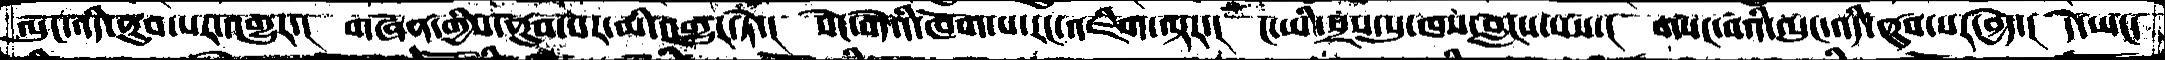ལུང་འདི་ནུབ་པར་འགྱུར་།  གཞན་གྱིས་ནུབ་པོར་མི་འགྱུར་ཏེ་།  སེང་གེའི་ཁོག་པ་རང་འཇིག་ལྟར་།  ང་ཡི་སྲས་སུ་ཁས་བླངས་པས་།  གསང་བའི་ལུང་འདི་ནུབ་པར་བྱེད་།  དེ་ཡང་
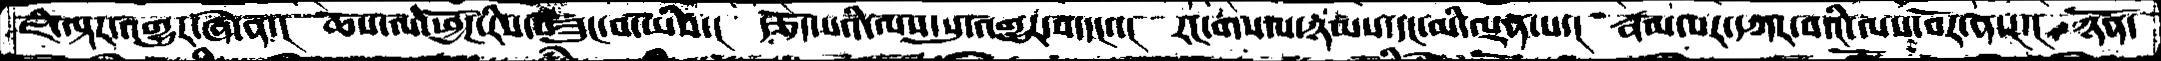ཇི་ལྟར་འགྱུར་ཞེ་ན་།   ཆོས་ལ་ཕྱོཌ་རིས་བཟུང་བ་ཡིས་།   རྩོད་པའི་ལས་སུ་འགྱུར་བ་དང་་།  རང་གིས་ཉམས་དང་མི་ལྡན་པ་།  རྣམ་པར་དཀར་བའི་ལས་བོར་ནས་།  ཉོན་
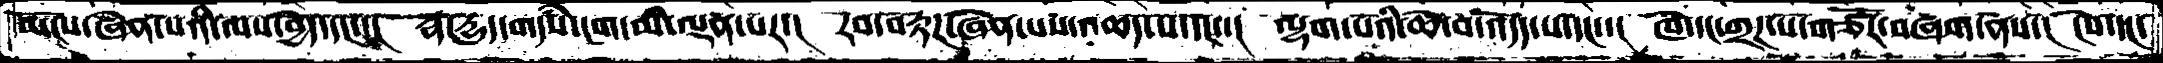མོངས་ཞེན་པའི་ལས་བྱེད་དང་་།  རྣ་དྱུད་གདཾས་ངག་མི་ལྡན་པར་།  རབ་བརྟཌ་ཞེན་པས་འཆད་པ་དང་།  ལྷག་པའི་ཆེ་བ་འདོད་པ་དང་་།  ཁེ་དང་གྲཌ་པ་གཙོར་བཞག་ནས་།  ངེས་དང་
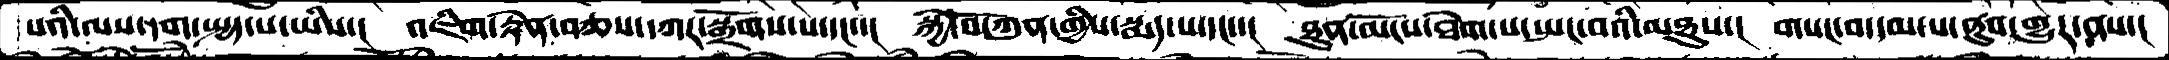པའི་ལས་དག་སྤྱད་པ་ཡིས་།  འཇིག་རྟེན་བཅས་དཀར་སྒྲོགས་པ་དང་་།  སྐྱེ་བོ་ཀུན་གྱིས་སྨད་པ་དང་་།  ཐུན་མོངས་ཐེག་པ་སྤང་བའི་མཐུས་།  གསང་བ་དམ་པ་ནུབ་གྱུར་ནས་།
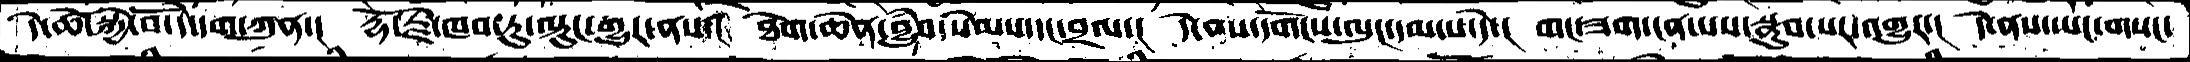དེ་ཚེ་སྐྱེ་བོ་དེ་དག་ཀུན་།  རྡོ་རྗེ་ཁབ་ཏུ་ལྟུང་གྱུར་ནས་།  ཐེག་ཆེན་བྱུཾབ་སེམས་དང་བྲལ་།  དེ་བས་དགོངས་ལུང་དམ་པ་དེ་།  གང་ཟག་ངན་པས་སྣུབ་པར་འགྱུར་།  དེ་ནས་ཡང་གསང་
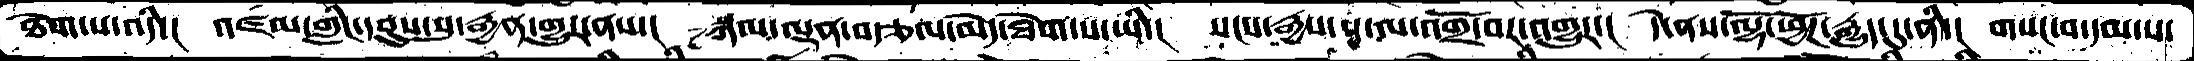ཐེག་པ་འདི་།  འཛམ་གླིང་དབུས་སུ་རྒྱན་གྱུར་ནས་།  སྐལ་ལྡན་བརྩལ་མེད་ཐེག་པ་ཡི་།  སངས་རྒྱས་ས་ལ་འགྲོ་བར་འགྱུར་།  དེ་ནས་ལྷོ་ཕྱོཌ་རྒྱུད་དུ་ནི་།  གསང་བ་དམ་པ་
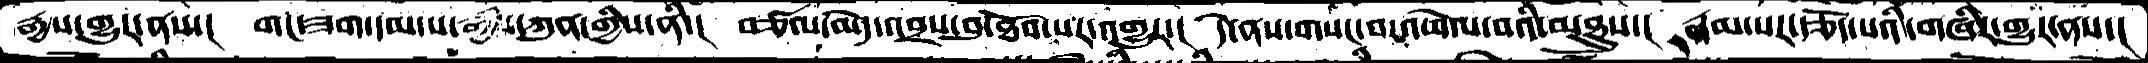རྒྱས་གྱུར་ནས་།  གང་ཟག་དམ་པ་རྒྱལ་ཀུན་གྱིས་།   བཙལ་མེད་འབྲས་བུ་ཐོབ་པར་འགྱུར་།  དེ་ནས་གསང་བ་འཕེལ་བའི་མཐུས་།  རྣམ་པར་རྩོད་པའི་གཞི་གྱུར་ནས་།
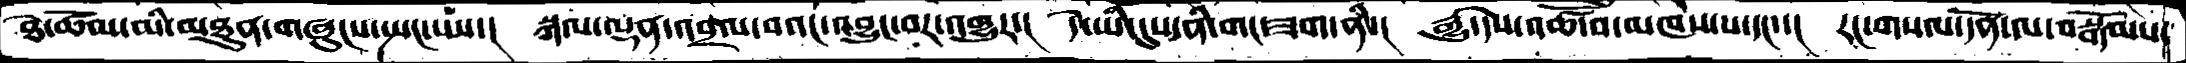ཐེ་ཚོམ་མི་མཐུན་གཞུངས་སྤང་པས་།  སྐལ་ལྡན་འབྲལ་བའང་འབྱུང་བར་འགྱུར་།  དེ་ཡི་དུས་ནི་གང་ཟག་ནི་།  རྒྱུ་དེས་འཚོ་བ་མཁས་པ་དང་་།  རང་གསལ་དོན་ལ་བསྒོམས་
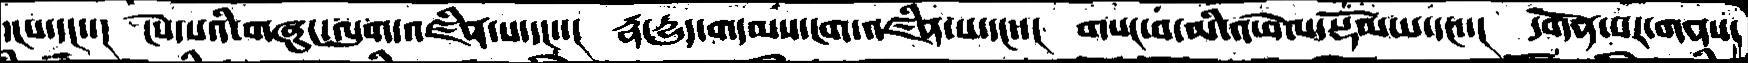་།ས་དང་་།  ངེས་པའི་གཞུང་ལུག་འཛིན་པ་དང་་།  རྣ་དྱུད་གདམས་ངག་འཛིན་པ་དང་་།  གསང་བ་མི་འཕེལ་སྡོམ་པ་དང་་།   དགོན་པར་གནས་
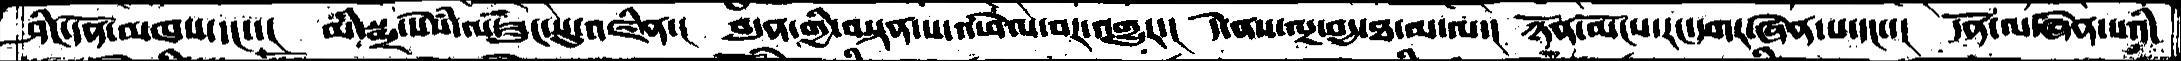ཤིང་དོན་མཁས་དང་་།   མི་སྨྲ་སེཾས་ལ་ཟུང་སུ་འཛིན་།  བདུན་གྱི་བསྟན་པ་འཕེལ་བར་འགྱུར་།  དེ་ནས་ལྔ་བདྱ་ཐ་མ་ལ་།  ཉོན་མོངས་རང་དགར་ཞེན་པ་དང་་།  དོན་ལ་ཞེན་པའི་
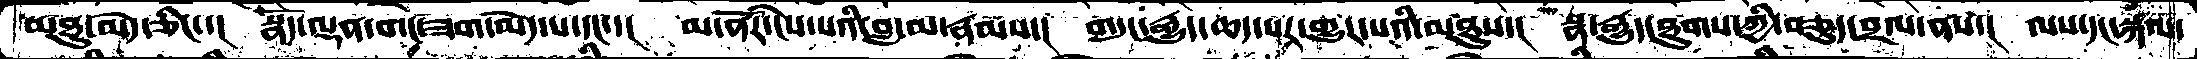མཐུ་མེད་ཅིང་་།    སྣོད་ལྡན་གང་ཟག་མེད་པ་དང་་།  མ་ནོར་ངེས་པའི་བླ་མ་རྣམས་།  གདུང་རྒྱུད་ཆད་པར་གྱུར་པའི་མཐུས་།  སྣ་རྒྱུད་ཐུགས་ཀྱི་བཅུད་བྲལ་ནས་།  ལས་དང་སྐལ་
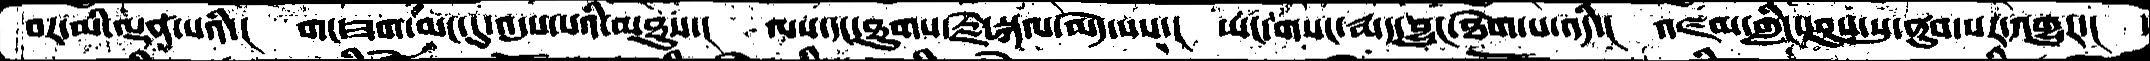བར་མི་ལྡན་པའི་།  གང་ཟག་མང་དུ་འདུས་པའི་མཐུས་།  ལས་དང་ཐུགས་རྗེ་སྐལ་མེད་པས་།  ཡང་གསང་རྨད་བྱུང་ཐེག་པ་འདི་།  འཛམ་གླིང་དབུས་སུ་ནུབ་པར་འགྱུར་།  ་
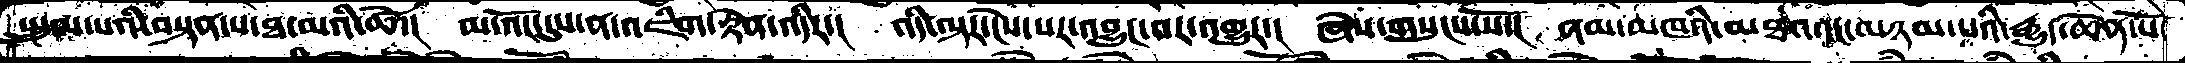སྤྲུལ་པའི་བསྟན་པ་ཐ་མའི་ཚེ་།  མ་འོང་དུས་ན་འཇིག་རྟེན་འདིར་།  འདི་ལྟར་ངེས་པར་འབྱུང་བར་འགྱུར་། ཞེས་གསུངས་སོ་།  ནམ་མཁའི་མཐའ་དང་མཉམ་པའི་རྒྱུད་ཆེན་པོ་
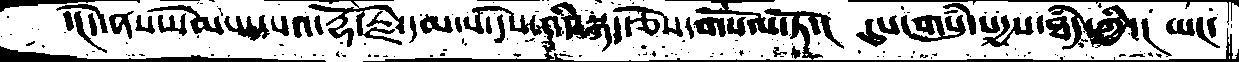་།དེ་ནས་སེམས་དཔའ་རྡོ་རྗེ་དམ་པ་དེས་འདི་སྐད་ཅེས་གསོལ་ཏོ་།  དུས་གསུམ་སདྱས་ཐཾད་ཀྱི་།  ཡང་
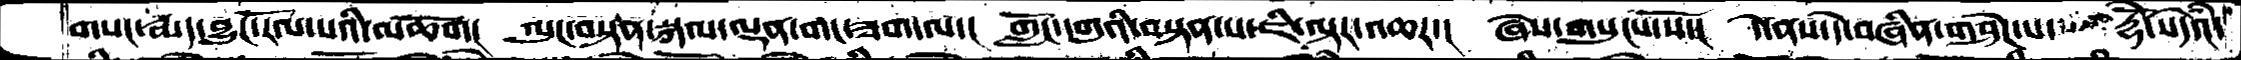གསང་རྨད་བྱུང་རོལ་པའི་མཆོག།  ལུང་བསྟན་སྐལ་ལྡན་གང་ཟག་ལ་།  ཀློང་དགུའི་བསྟན་པ་ཇི་ལྟར་འཆར་།  ཞེས་གསུངས་སོ་།   དེ་ནས་དེ་བཞིན་གཤེཌ་པ་  རྡོེ་སེདཾའ་
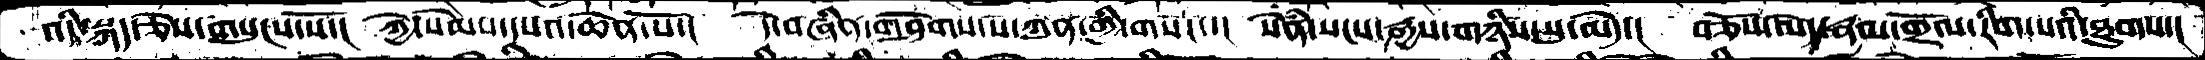འདི་སྐད་ཅེས་གསུངས་སོ་།  ཀྱེ་སེམས་དཔའ་ཆེེན་པོ་།  དེ་བཞིན་གཤེགས་པ་ཀུན་གྱི་གསང་་།  སེཾན་སངས་རྒྱས་གཉིས་སུ་མེད་།  བཅོས་མེད་རྣམ་གྲོལ་རིག་པའི་ཐུགས་།
